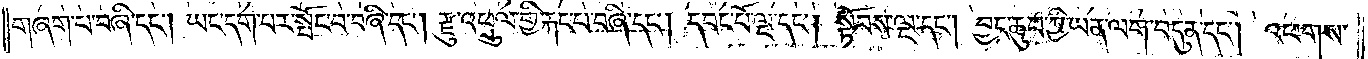གཞག་པ་བཞི་དང༌། ཡང་དག་པར་སྤོང་པ་བཞི་དང༌། རྫུ་འཕྲུལ་གྱི་རྐང་པ་བཞི་དང༌། དབང་པོ་ལྔ་དང༌། སྟོབས་ལྔ་དང༌། བྱང་ཆུབ་ཀྱི་ཡན་ལག་བདུན་དང༌། འཕགས་
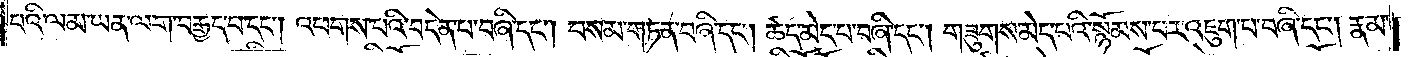པའི་ལམ་ཡན་ལག་བརྒྱད་པ་དང༌། འཕགས་པའི་བདེན་པ་བཞི་དང༌། བསམ་གཏན་བཞི་དང༌། ཚད་མེད་པ་བཞི་དང༌། གཟུགས་མེད་པའི་སྙོམས་པར་འཇུག་པ་བཞི་དང༌། རྣམ་
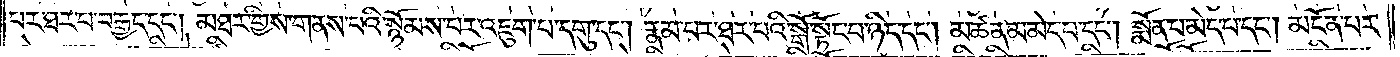པར་ཐར་པ་བརྒྱད་དང༌། མཐར་གྱིས་གནས་པའི་སྙོམས་པར་འཇུག་པ་དགུ་དང༌། རྣམ་པར་ཐར་པའི་སྒོ་སྟོང་པ་ཉིད་དང༌། མཚན་མ་མེད་པ་དང༌། སྨོན་པ་མེད་པ་དང༌། མངོན་པར་
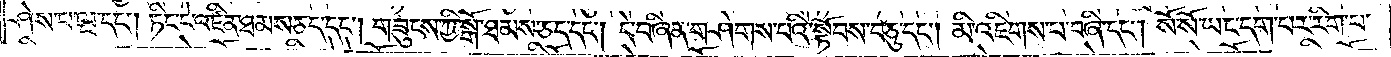ཤེས་པ་ལྔ་དང༌། ཏིང་ངེ་འཛིན་ཐམས་ཅད་དང༌། གཟུངས་ཀྱི་སྒོ་ཐམས་ཅད་དང༌། དེ་བཞིན་གཤེགས་པའི་སྟོབས་བཅུ་དང༌། མི་འཇིགས་པ་བཞི་དང༌། སོ་སོ་ཡང་དག་པར་རིག་པ་
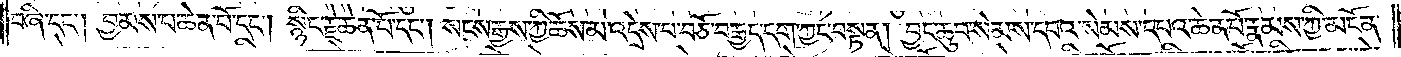བཞི་དང༌། བྱམས་པ་ཆེན་པོ་དང༌། སྙིང་རྗེ་ཆེན་པོ་དང༌། སངས་རྒྱས་ཀྱི་ཆོས་མ་འདྲེས་པ་བཅོ་བརྒྱད་དག་ཀྱང་བསྟན། བྱང་ཆུབ་སེམས་དཔའ་སེམས་དཔའ་ཆེན་པོ་རྣམས་ཀྱི་མངོན་
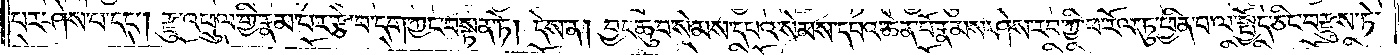པར་ཤེས་པ་དང༌། རྫུ་འཕྲུལ་གྱི་རྣམ་པར་རྩེ་བ་དག་ཀྱང་བསྟན་ཏེ། དེས་ན། བྱང་ཆུབ་སེམས་དཔའ་སེམས་དཔའ་ཆེན་པོ་རྣམས་ཤེས་རབ་ཀྱི་ཕ་རོལ་ཏུ་ཕྱིན་པ་ལ་སྤྱོད་ཅིང་བརྫུས་ཏེ་
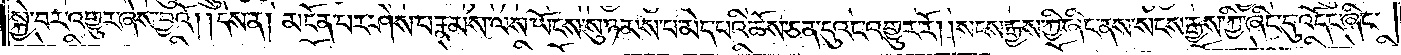སྐྱེ་བར་འགྱུར་ཞེས་བྱའོ། །དེས་ན། མངོན་པར་ཤེས་པ་རྣམས་ལས་ཡོངས་སུ་ཉམས་པ་མེད་པའི་ཆོས་ཅན་དུའང་འགྱུར་རོ། །སངས་རྒྱས་ཀྱི་ཞིང་ནས་སངས་རྒྱས་ཀྱི་ཞིང་དུ་འདོང་ཞིང་
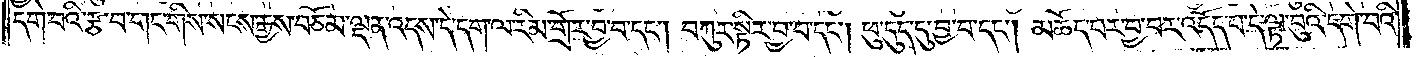དགེ་བའི་རྩ་བ་གང་གིས་སངས་རྒྱས་བཅོམ་ལྡན་འདས་དེ་དག་ལ་རིམ་གྲོར་བྱ་བ་དང༌། བཀུར་སྟིར་བྱ་བ་དང༌། ཕུ་དུད་དུ་བྱ་བ་དང༌། མཆོད་པར་བྱ་བར་འདོད་པ་དེ་ལྟ་བུའི་དགེ་བའི་
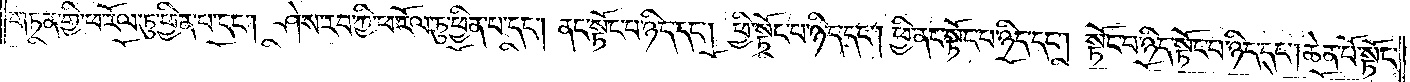གཏན་གྱི་ཕ་རོལ་ཏུ་ཕྱིན་པ་དང༌། ཤེས་རབ་ཀྱི་ཕ་རོལ་ཏུ་ཕྱིན་པ་དང༌། ནང་སྟོང་པ་ཉིད་དང༌། ཕྱི་སྟོང་པ་ཉིད་དང༌། ཕྱི་ནང་སྟོང་པ་ཉིད་དང༌། སྟོང་པ་ཉིད་སྟོང་པ་ཉིད་དང༌། ཆེན་པོ་སྟོང་
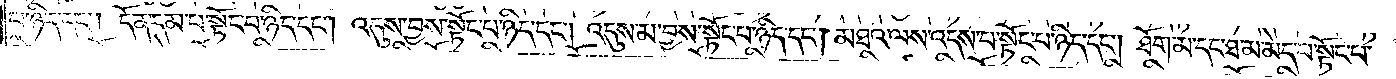པ་ཉིད་དང༌། དོན་དམ་པ་སྟོང་པ་ཉིད་དང༌། འདུས་བྱས་སྟོང་པ་ཉིད་དང༌། འདུས་མ་བྱས་སྟོང་པ་ཉིད་དང༌། མཐའ་ལས་འདས་པ་སྟོང་པ་ཉིད་དང༌། ཐོག་མ་དང་ཐ་མ་མེད་པ་སྟོང་པ་
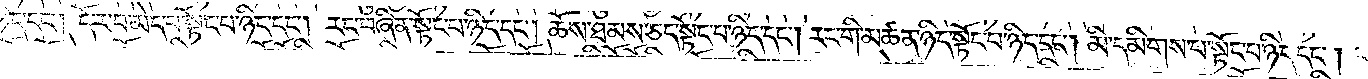ཉིད་དང༌། དོར་བ་མེད་པ་སྟོང་པ་ཉིད་དང༌། རང་བཞིན་སྟོང་པ་ཉིད་དང༌། ཆོས་ཐམས་ཅད་སྟོང་པ་ཉིད་དང༌། རང་གི་མཚན་ཉིད་སྟོང་པ་ཉིད་དང༌། མི་དམིགས་པ་སྟོང་པ་ཉིད་དང༌།
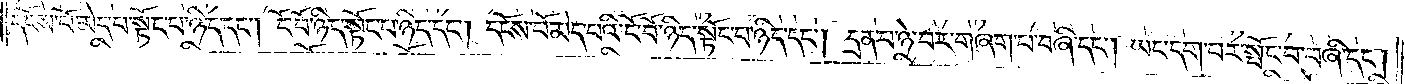དངོས་པོ་མེད་པ་སྟོང་པ་ཉིད་དང༌། ངོ་བོ་ཉིད་སྟོང་པ་ཉིད་དང༌། དངོས་པོ་མེད་པའི་ངོ་བོ་ཉིད་སྟོང་པ་ཉིད་དང༌། དྲན་པ་ཉེ་བར་བཞག་པ་བཞི་དང༌། ཡང་དག་པར་སྤོང་བ་བཞི་དང༌།
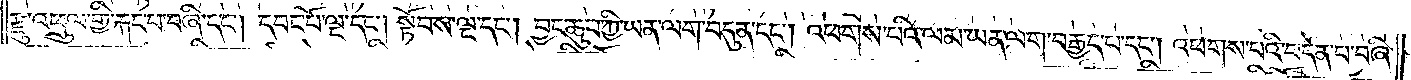རྫུ་འཕྲུལ་གྱི་རྐང་པ་བཞི་དང༌། དབང་པོ་ལྔ་དང༌། སྟོབས་ལྔ་དང༌། བྱང་ཆུབ་ཀྱི་ཡན་ལག་བདུན་དང༌། འཕགས་པའི་ལམ་ཡན་ལག་བརྒྱད་པ་དང༌། འཕགས་པའི་བདེན་པ་བཞི་
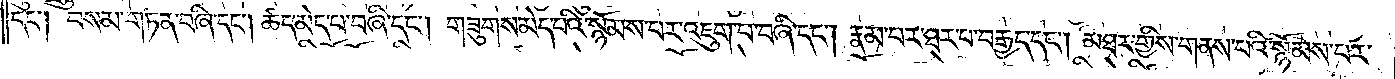དང༌། བསམ་གཏན་བཞི་དང༌། ཚད་མེད་པ་བཞི་དང༌། གཟུགས་མེད་པའི་སྙོམས་པར་འཇུག་པ་བཞི་དང༌། རྣམ་པར་ཐར་པ་བརྒྱད་དང༌། མཐར་གྱིས་གནས་པའི་སྙོམས་པར་
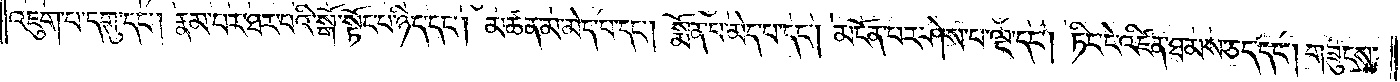འཇུག་པ་དགུ་དང༌། རྣམ་པར་ཐར་པའི་སྒོ་སྟོང་པ་ཉིད་དང༌། མཚན་མ་མེད་པ་དང༌། སྨོན་པ་མེད་པ་དང༌། མངོན་པར་ཤེས་པ་ལྔ་དང༌། ཏིང་ངེ་འཛིན་ཐམས་ཅད་དང༌། གཟུངས་
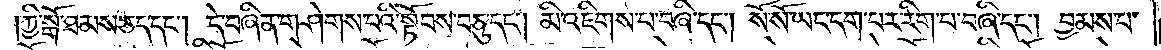ཀྱི་སྒོ་ཐམས་ཅད་དང༌། དེ་བཞིན་གཤེགས་པའི་སྟོབས་བཅུ་དང༌། མི་འཇིགས་པ་བཞི་དང༌། སོ་སོ་ཡང་དག་པར་རིག་པ་བཞི་དང༌། བྱམས་པ་
